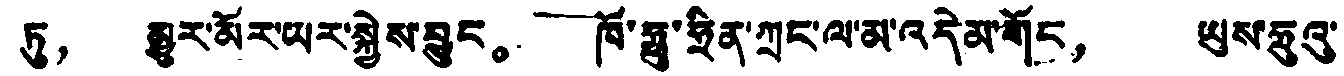ཏུ， མྱུར་མོར་ཡར་སྐྱེས་བྱུང。 ཁོ་ཧྥུ་ཧྲིན་ཀྲང་ལ་མ་འདེམ་གོང， ཡུས་ཧྲུའུ་
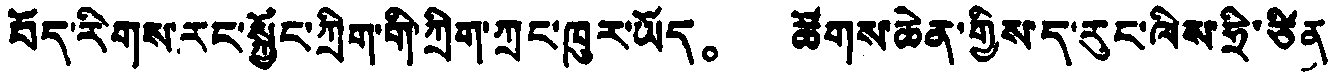བོད་རིགས་རང་སྐྱོང་ཀྲིག་གི་ཀྲིག་ཀྲང་ཁུར་ཡོད。 ཚོགས་ཆེན་གྱིས་ད་རུང་ལིས་ཧྲི་ཙིན
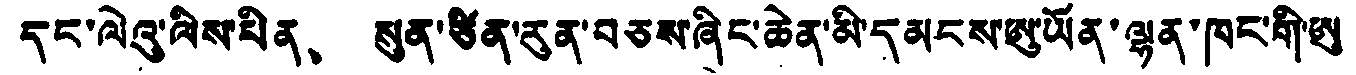དང་ལེའུ་ལིས་པིན、 སུན་ཙིན་རུན་བཅས་ཞིང་ཆེན་མི་དམངས་ཨུ་ཡོན་ལྷན་ཁང་གི་ཨུ་
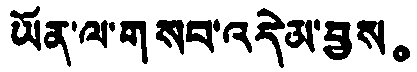ཡོན་ལ་གསབ་འདེམ་བྱས。
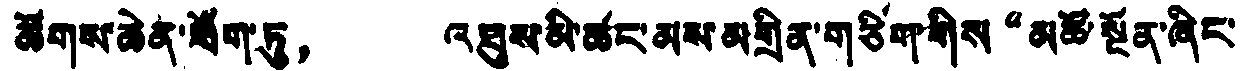ཚོགས་ཆེན་ཐོག་ཏུ， འཐུས་མི་ཚང་མས་མགྲིན་གཅིག་གིས་“མཚོ་སྔོན་ཞིང་
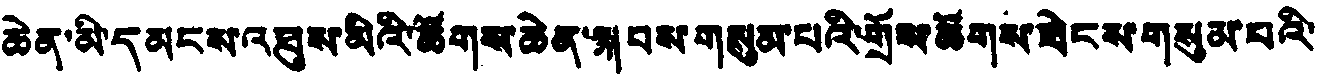ཆེན་མི་དམངས་འཐུས་མིའི་ཚོགས་ཆེན་སྐབས་གསུམ་པའི་གྲོས་ཚོགས་ཐེངས་གསུམ་པའི་
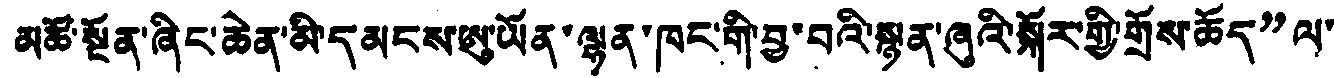མཚོ་སྔོན་ཞིང་ཆེན་མི་དམངས་ཨུ་ཡོན་ལྷན་ཁང་གི་བྱ་བའི་སྙན་ཞུའི་སྐོར་གྱི་གྲོས་ཆོད”ལ་
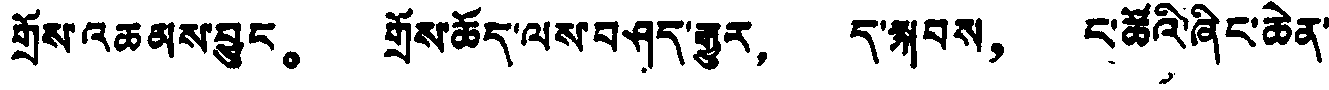གྲོས་འཆམས་བྱུང。 གྲོས་ཆོད་ལས་བཤད་རྒྱུར， ད་སྐབས， ང་ཚོའི་ཞིང་ཆེན་
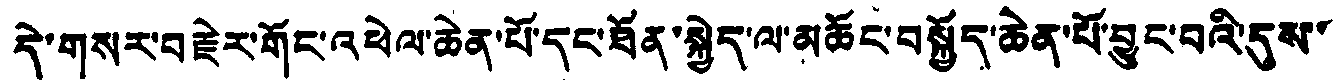དེ་གསར་བརྗེར་གོང་འཕེལ་ཆེན་པོ་དང་ཐོན་སྐྱེད་ལ་མཆོང་བསྐྱོད་ཆེན་པོ་བྱུང་བའི་དུས་
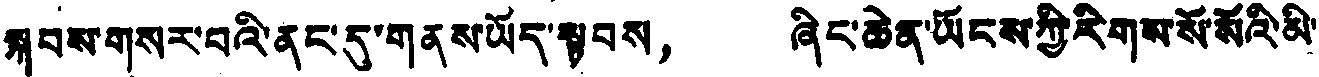སྐབས་གསར་བའི་ནང་དུ་གནས་ཡོད་སྟབས， ཞིང་ཆེན་ཡོངས་ཀྱི་རིགས་སོ་སོའི་མི་
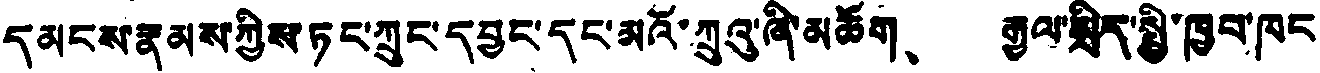དམངས་རྣམས་ཀྱིས ཏང་ཀྲུང་དབྱང་དང་མའོ་ཀྲུའུ་ཞི་མཆོག、 རྒྱལ་སྲིད་སྤྱི་ཁྱབ་ཁང
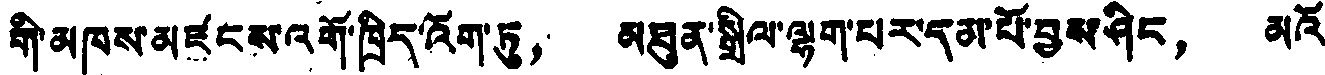གི་མཁས་མཛངས་འགོ་ཁྲིད་འོག་ཏུ， མཐུན་སྒྲིལ་ལྷག་པར་དམ་པོ་བྱས་ཤིང， མའོ་
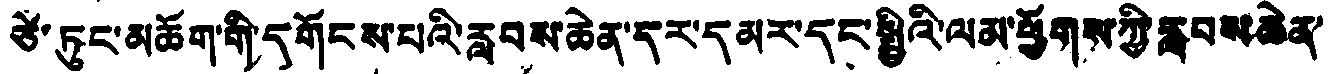ཙེ་ཏུང་མཆོག་གི་དགོངས་པའི་རླབས་ཆེན་དར་དམར་དང་སྤྱིའི་ལམ་ཕྱོགས་ཀྱི་རླབས་ཆེན་
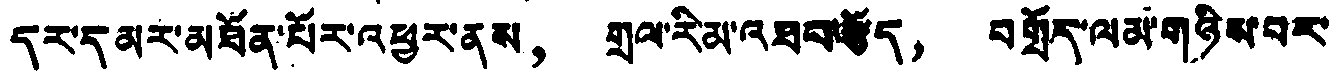དར་དམར་མཐོན་པོར་འཕྱར་ནས， གྲལ་རིམ་འཐབ་རྩོད， བགྲོད་ལམ་གཉིས་པར་
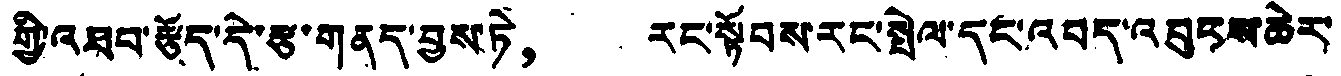གྱི་འཐབ་རྩོད་དེ་རྩ་གནད་བྱས་ཏེ， རང་སྟོབས་རང་སྤེལ་དང་འབད་འབུངས་ཆེར་
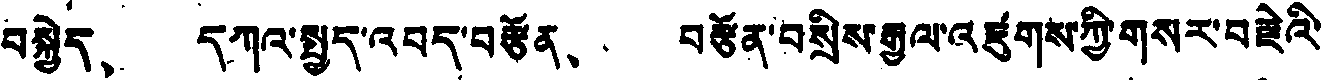བསྐྱེད、 དཀའ་སྤྱད་འབད་བརྩོན、 བརྩོན་བསྲིས་རྒྱལ་འཛུགས་ཀྱི་གསར་བརྗེའི་
